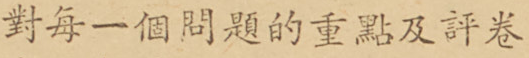對每一個問題的重點及評卷
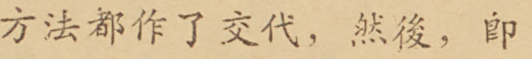方法都作了交代，然後，卽
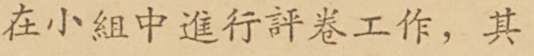在小組中進行評卷工作，其
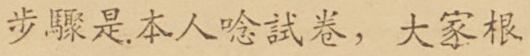步驟是本人唸試卷，大家根
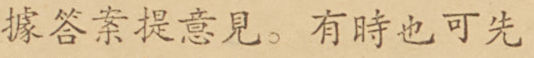據答案提意見。有時也可先
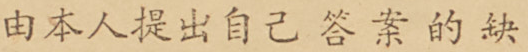由本人提出自己答案的缺
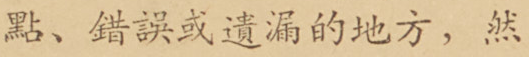點、錯誤或遺漏的地方，然
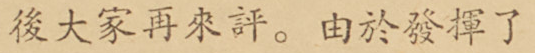後大家再來評。由於發揮了
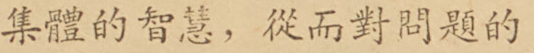集體的智慧，從而對問題的
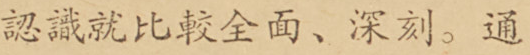認識就比較全面、深刻。通
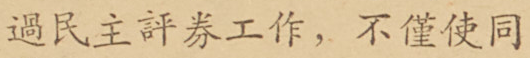過民主評券工作，不僅使同
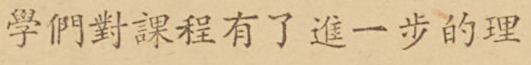學們對課程有了進一步的理
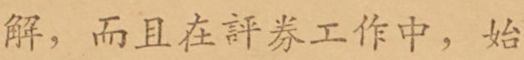解，而且在評券工作中，始
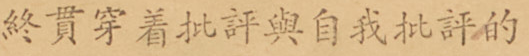終貫穿着批評與自我批判的
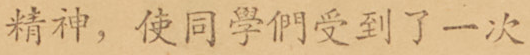精神，使同學們受到了一次
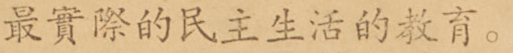最實際的民主生活的敎教育。
